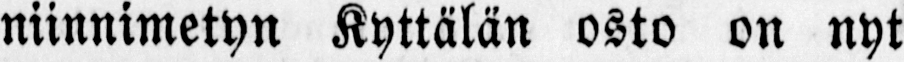niinnimetyn Kyttälän osto on nyt
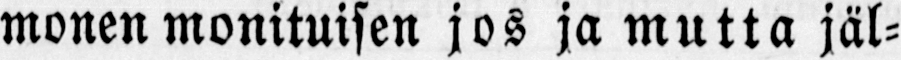monen monituisen jos ja mutta jäl-
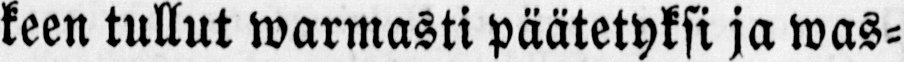keen tullut warmasti päätetyksi ja was-
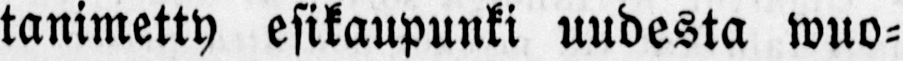tanimetty esikaupunki uudesta wuo-
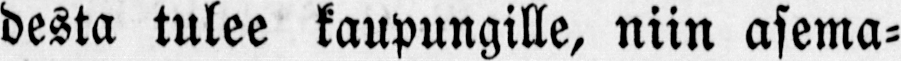desta tulee kaupungille, niin asema-
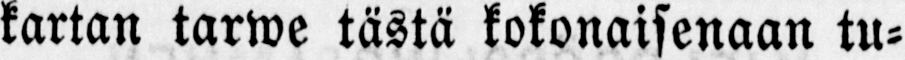kartan tarwe tästä kokonaisenaan tu-
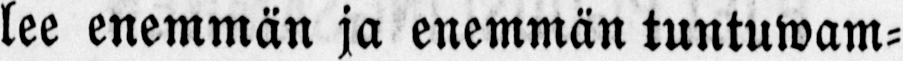lee enemmän ja enemmän tuntuwam-
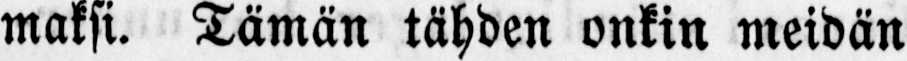maksi. Tämän tähden onkin meidän
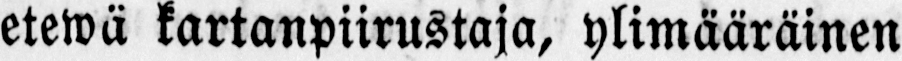etewä kartanpiirustaja, ylimääräinen
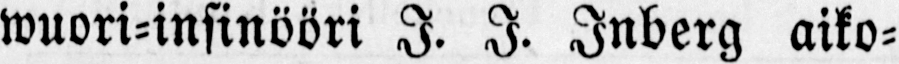wuori-insinööri I. I. Inberg aiko-
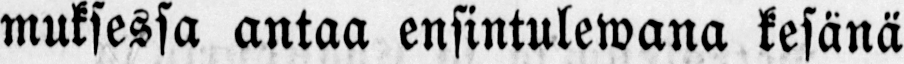muksessa antaa ensintulewana kesänä
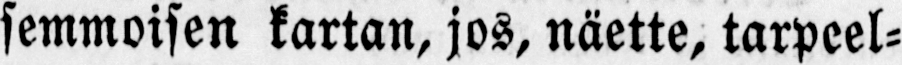semmoisen kartan, jos, näette, tarpeel-
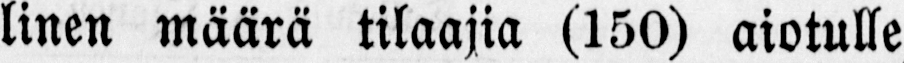linen määrä tilaajia (150) aiotulle
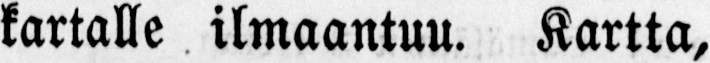kartalle ilmaantuu. Kartta, johon,
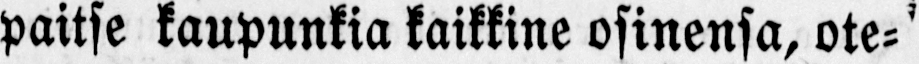paitse kaupunkia kaikkine osinensa, ote-
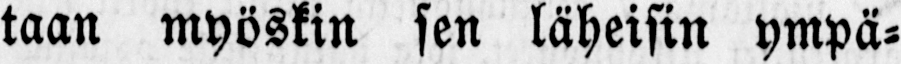taan myöskin sen läheisin ympä-
